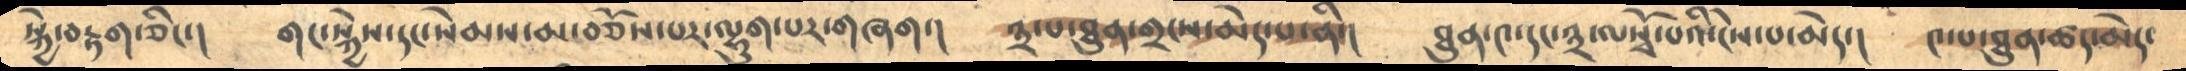སྐྱེ་བརྟག་ཅིང་།      གང་སྐྱེས་རང་སེམས་མ་བཅོས་པར་ལྷུག་པར་གཞག་།     ༣་པ་ཐུན་གྲངས་མེད་པ་ནི་།     ཐུན་༤་དང་༣་ལསྭོ་པའི་ངེས་པ་མེད་།     ༤་པ་ཐུན་ཚད་མེད་
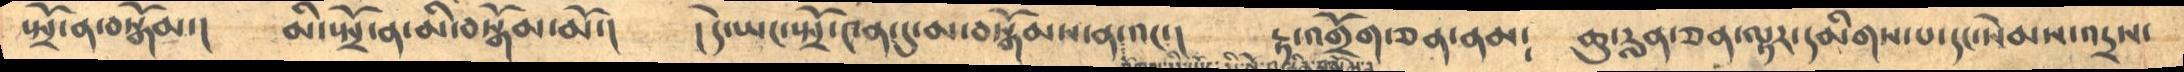སྤྲོ་ན་བསྒོམ་།   མི་སྤྲོ་ན་མི་བསྒོམ་མོ་།  །དེ་ཡང་སྤྲོ་༤ན་དུ་མ་བསྒོམས་ན་འང་།   རྟ་འགྲོག་ཅན་ནམ༴  ཆུ་རླན་ཅན་ལྟར་དམིགས་པ་དང་སེམས་འདྲས་
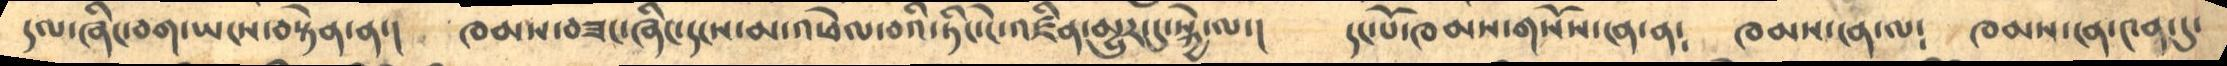དལ་ཞིང་བག་ཡངས་བསྟེན་ན་།    ཁམས་བཟང་ཞིང་དངས་མ་འཕེལ་བའི་ཏིང་ངེ་འཛིན་མྱུར་དུ་སྐྱེ་ལ་།    དང་པོ་ཁམས་གསོས་ངན་ན༴     ཁམས་ངན་ལ༴   ཁམས་ངན་༤ན་དུ་
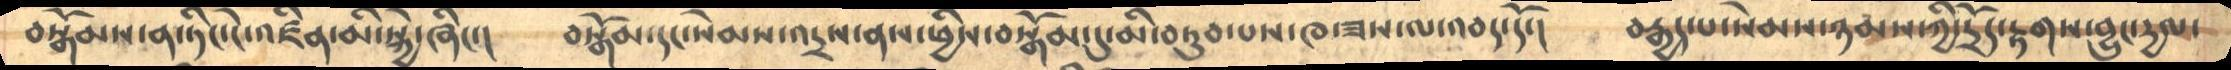བསྒོམས་ན་ཏིང་ངེ་འཛིན་མི་སྐྱེ་ཞིང་།     བསྒོམ་དང་སེམས་འདྲས་ནས་ཕྱིས་བསྒོམ་དུ་མི་བཏུབ་པས་ཁ་ཟས་ལ་འབད་དོ་།      བརྒྱད་པ་སེམས་ཉམས་ཀྱི་དྲོད་རྟགས་བྱུང་དྱལ་
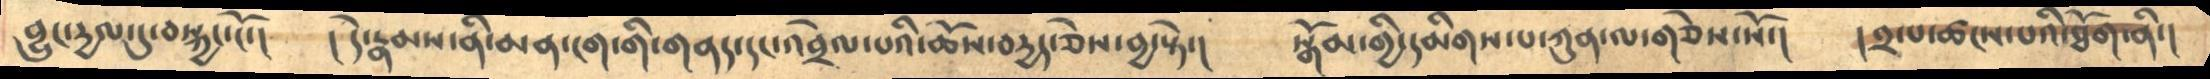བྱུང་དྱལ་དུ་བསྐྱང་ངོ་།     །དེ་རྣམས་ནི་མན་ངག་གི་གནད་དང་འབྲེལ་པའི་ཆོས་བདྱད་ཅེས་བྱ་སྟེ་།་    སྒོམ་གྱི་དམིགས་པ་ཀུན་ལ་གཅེས་སོ་།     །༢་པ་ཚངས་པའི་ཐོག་ནི་།
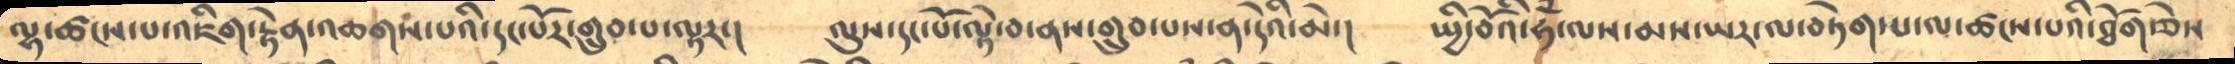ལྷ་ཚངས་པ་འཇིག་རྟེན་འཆགས་པའི་དང་པོར་གྲུབ་པ་ལྟར་།    ལུས་དང་པོ་ལྟེ་བ་ནས་གྲུབ་པས་ན་དེའི་མེ་།    སྤྱི་བོའི་ཧཾ་ལས་མས་ཡར་ལ་བཏེག་པ་ལ་ཚངས་པའི་ཐོག་ཅེས
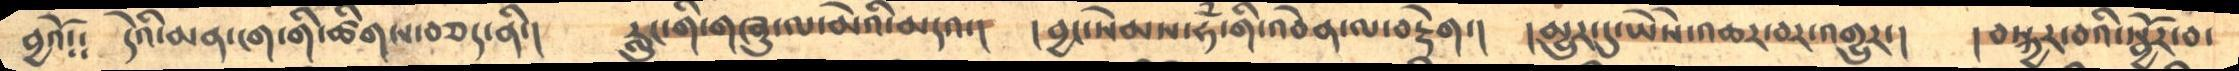བྱའོ༴༴   དེའི་མན་ངག་གི་ཚིགས་བཅད་ནི་།    རླུང་གི་གཞུ་ལ་མེའི་མདའ་།    །བྱང་སེམས་ཧཾ་གི་འབེན་ལ་བརྡེག་།    །མྱུར་དུ་ཡཻས་འཆར་བར་འགྱུར་།    །བསྐྱར་བའི་སྦྱོར་བ་
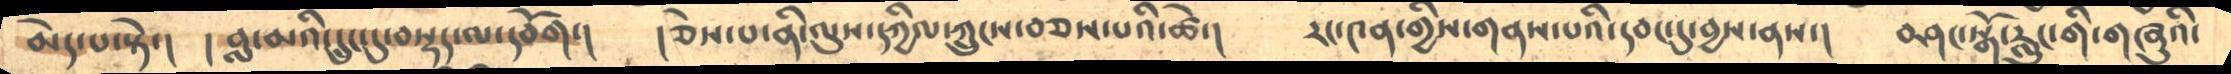མེད་པ་སྟེ་།    །བླ་མའི་དྲུང་དུ་བསྡད་ལ་དབོག་།     །ཅེས་པ་ནི་ལུས་དཀྱིལ་ཀྲུངས་བཅས་པའི་ཚེ་།     རང་༤ན་གྱིས་གནས་པའི་དབང་དུ་བྱས་ནས་།      བཤང་སྒོ་རླུང་གི་གཞུའི་
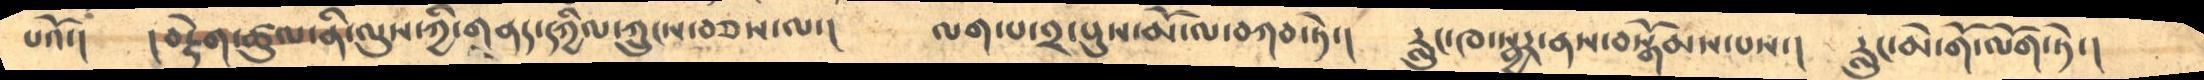པའོ་།     ། བརྡེག་ཚུལ་ནི་ལུས་ཀྱི་གནད་དཀྱིལ་ཀྲུངས་བཅས་ལ་།     ལག་པ་༢་པུས་མོ་ལ་བཀབ་ཏེ་།    རླུང་ཁ་སྦྱར་ནས་བསྒོམས་པས་།    རླུང་མེ་གོ་ལོག་ཏེ་།
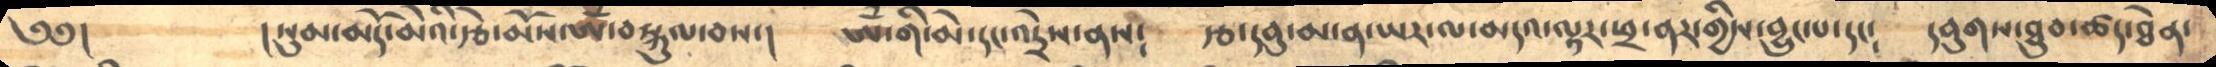༄༅།        །སུམ་མདོ་མེའི་རྩེ་མོས་ཨོཾ་བསྐུལ་བས་།      ཨོཾ་གི་མེ་དང་འདྲེས་ནས༴    རྩ་དབུ་མ་ན་ཡར་ལ་མདའ་ལྟར་ཕྲ་ནར་གྱིས་བྱུང་པ་དང༴    དབུགས་ཐུབ་ཚད་ཐེན་
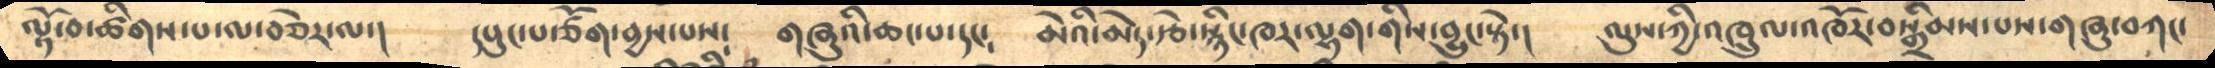ལྟོ་བ་ཚིགས་པ་ལ་བཅེར་ལ་།    དཔུང་པ་ཙོག་བྱས་པས༴     གཞུའི་ཆང་པ་དང༴      མེའི་མེར་རྩེ་སྙིང་ཁར་ལྷག་གིས་བྱུང་སྟེ་།    ལུས་ཀྱི་འཁྲུལ་འཁོར་བསྒྲིམས་པས་གཞུ་བཀང་
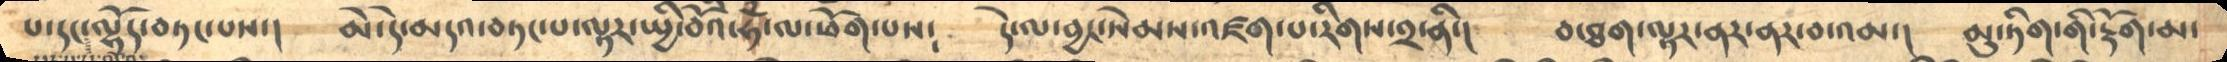པ་དང་ལྷོད་བཏང་པས་།     མེ་དེ་མདའ་བཏང་པ་ལྟར་སྤྱི་བོའི་ཧཾ་ལ་ཕོག་པས༴      དེ་ལ་བྱང་སེམས་འཛག་པ་རིགས་༢་ནི་།    བ་ཐག་ལྟར་ནར་ནར་བ་འམ་།   མུ་ཏིག་གི་རྡོག་མ་
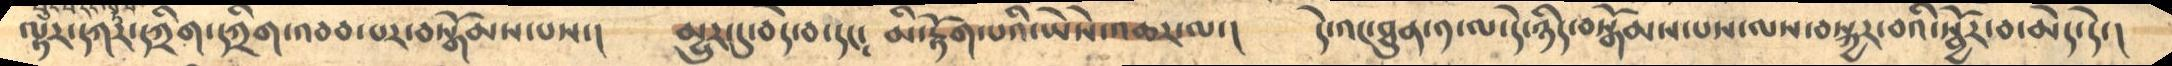ལྟར་དཀར་དཀྲིག་དཀྲིག་འབབ་པར་བསྒོམས་པས་།   མྱུར་དུ་བདེ་བ་དང༴  མི་རྟོག་པའི་ཡཻས་འཆར་ལ་།  དེ་འང་ཐུན་༡་ལ་དེ་ཉིད་བསྒོམས་པས་ལས་བསྐྱར་བའི་སྦྱོར་བ་མེད་དེ་།
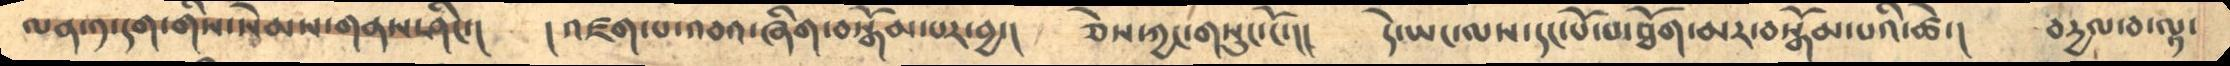ལན་༡་དག་གིས་སེམས་གནས་ཤིང་།    །འཛག་པ་འབའ་ཞིག་བསྒོམ་པར་བྱ་།    ཅེས་ཀྱང་གསུང་ངོ་།།    དེ་ཡང་ལས་དང་པོ་པ་ཐོག་མར་བསྒོམ་པའི་ཚེ་།   བདྱལ་བ་ལྟ་
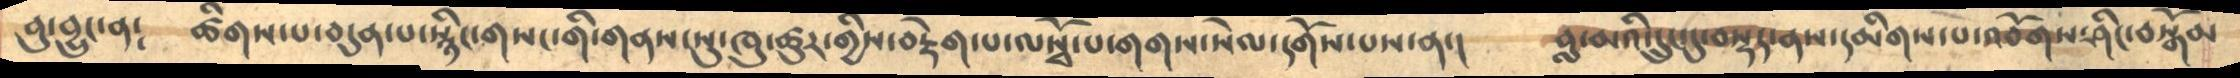བུ་བྱུང་ན༴    ཚིགས་པ་བདུན་པ་སྙིང་གསང་གི་གནས་སུ་ཁུ་ཚུར་གྱིས་བརྡེག་པ་ལསྭོ་པ་གགས་སེལ་དགོས་པས་ན་།    བླ་མའི་དྲུང་དུ་བསྡད་ནས་དམིགས་པ་འབོགས་ཤིང་བསྒོམ
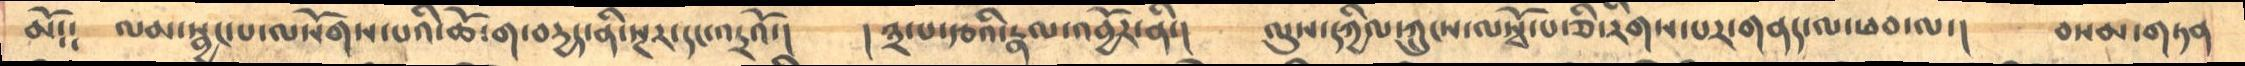མོ༴༴    ལམ་སྦྱང་པ་ལསོགས་པའི་ཆོ་ག་བདྱད་ནི་སྔར་དང་འདྲའོ་།    །༣་པ་རྩའི་རྣལ་འབྱོར་ནི་།    ལུས་དཀྱིལ་ཀྲུངས་ལསྭོ་པ་ཅི་རིགས་པར་གནད་ལ་ཕབ་ལ་།    བསམ་གཏན
